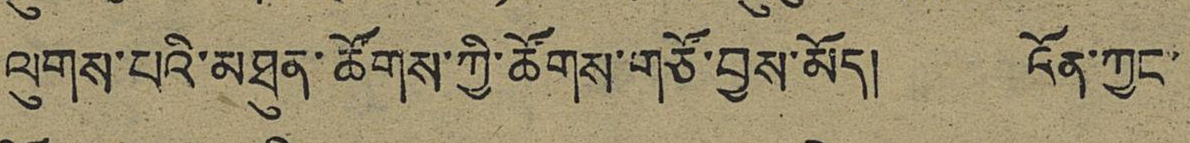ལུགས་པའི་མཐུན་ཚོགས་ཀྱི་ཚོགས་གཙོ་བྱས་མོད། འོན་ཀྱང་
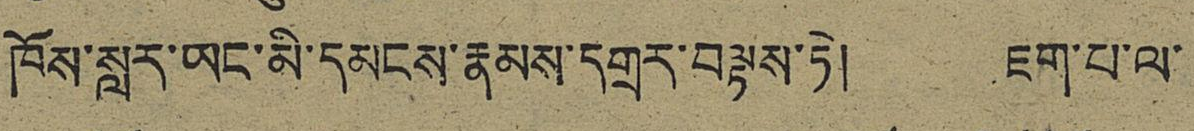ཁོས་སླར་ཡང་མི་དམངས་རྣམས་དགྲར་བལྟས་ཏེ། ཇག་པ་ལ་
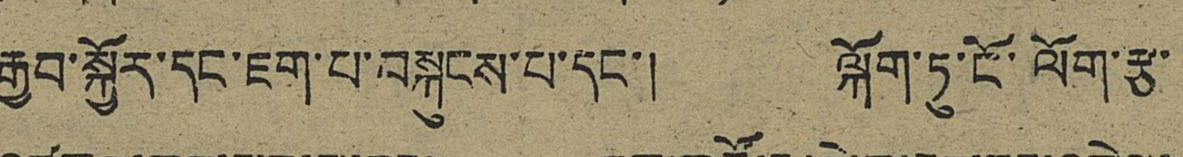རྒྱབ་སྐྱོར་དང་ཇག་པ་བསྐུངས་པ་དང་། ལྐོག་ཏུ་ངོ་ལོག་རྩ་
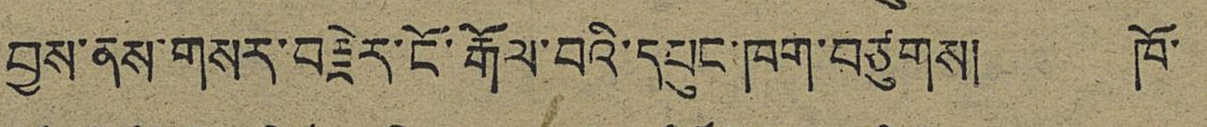བྱས་ནས་གསར་བརྗེར་ངོ་རྒོལ་བའི་དཔུང་ཁག་བཙུགས། ཁོ་
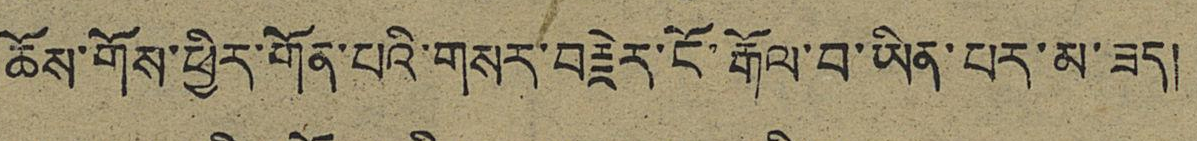ཆོས་གོས་ཕྱིར་གོན་པའི་གསར་བརྗེར་ངོ་རྒོལ་བ་ཡིན་པར་མ་ཟད།
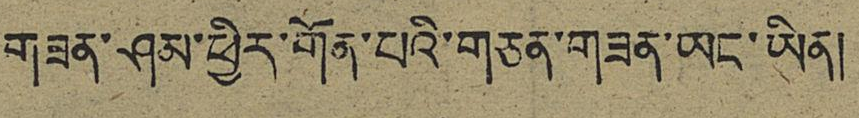གཟན་ཤམ་ཕྱིར་གོན་པའི་གཅན་གཟན་ཡང་ཡིན།
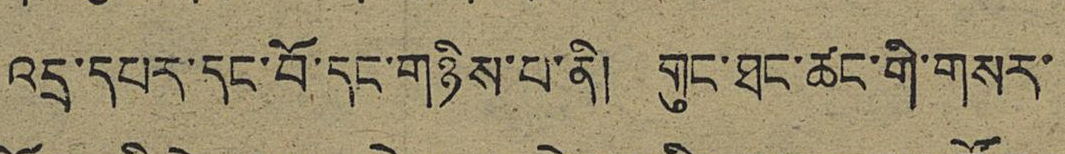འདྲ་དཔར་དང་བོ་དང་གཉིས་པ་ནི། གུང་ཐང་ཚང་གི་གསར་
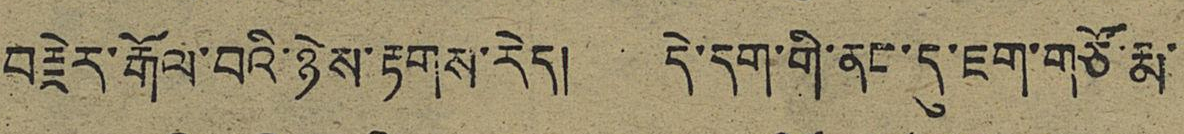བརྗེར་རྒོལ་བའི་ཉེས་རྟགས་རེད། དེ་དག་གི་ནང་དུ་ཇག་གཙོ་རྨ་
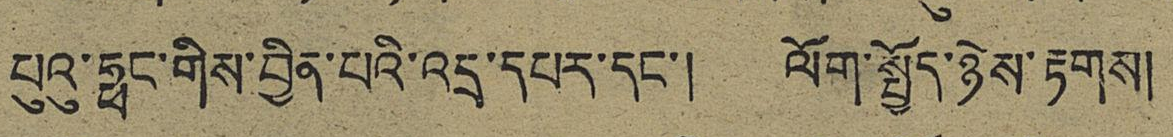པུའུ་ཧྥང་གིས་བྱིན་པའི་འདྲ་དཔར་དང་། ལོག་སྤྱོད་ཉེས་རྟགས།
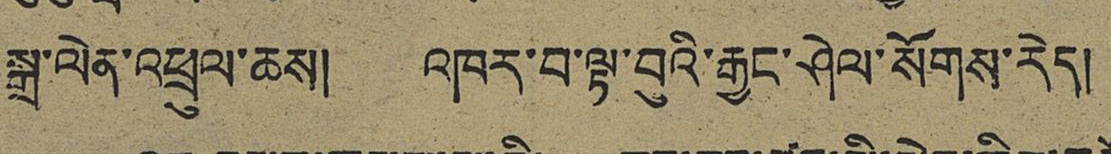སྒྲ་ལེན་འཕྲུལ་ཆས། འཁར་བ་ལྟ་བུའི་རྒྱང་ཤེལ་སོགས་རེད།
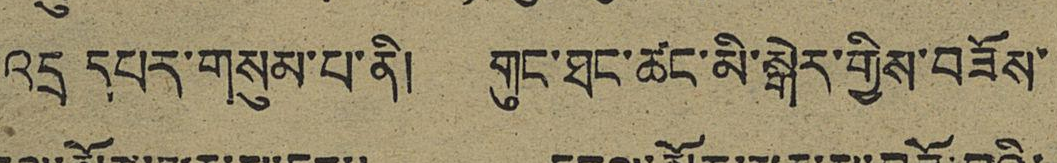འདྲ དཔར་གསུམ་པ་ནི། གུང་ཐང་ཚང་མི་སྒེར་གྱིས་བཟོས་
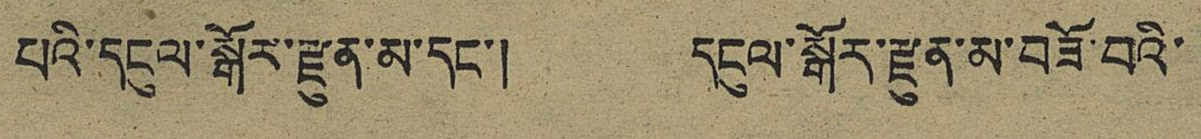པའི་དངུལ་སྒོར་རྫུན་མ་དང་། དངུལ་སྒོར་རྫུན་མ་བཟོ་བའི་
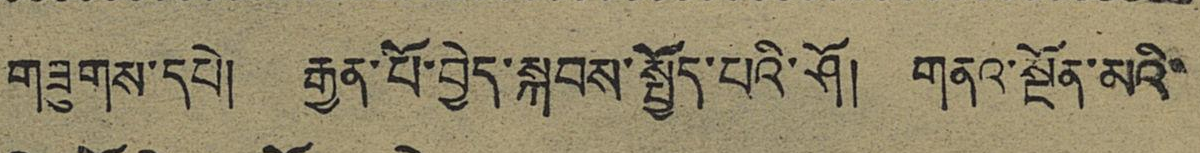གཟུགས་དཔེ། རྒྱན་པོ་བྱེད་སྐབས་སྤྱོད་པའི་ཤོ། གནའ་སྔོན་མའི་
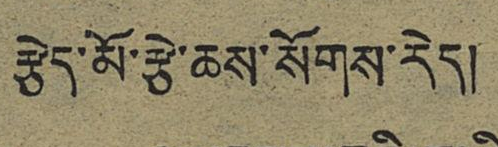རྩེད་མོ་རྩེ་ཆས་སོགས་རེད།
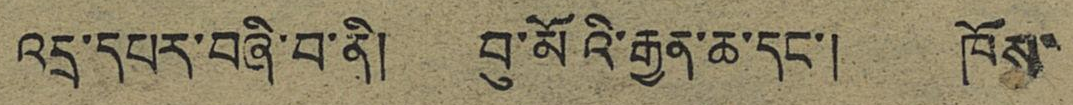འདྲ་དཔར་བཞི་བ་ནི། བུ་མོའི་རྒྱུན་ཆ་དང་། ཁོས་
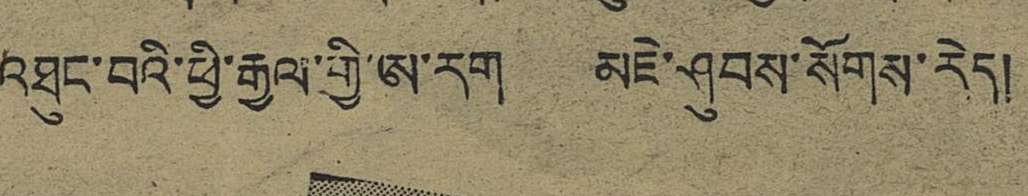འཐུང་བི་ཕྱ་རྒྱལ་གྱི་ཨ་རག མཇེ་ཤུབས་སོགས་རེད།
